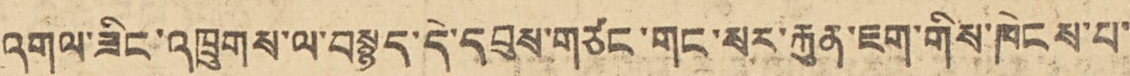འགལ་ཟིང་འཁྲུགས་ལ་བསྙད་དེ་དབུས་གཙང་གང་སར་རྐུན་ཇག་གིས་ཁེངས་པ་
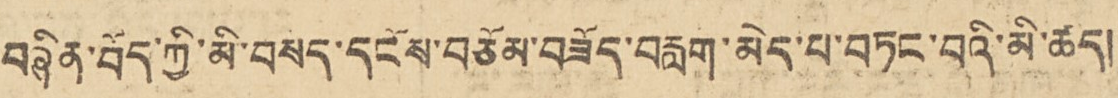བཞིན་བོད་ཀྱི་མི་བསད་དངོས་བཅོམ་བཟོད་བརླག་མེད་པ་བཏང་བའི་མི་ཚད།
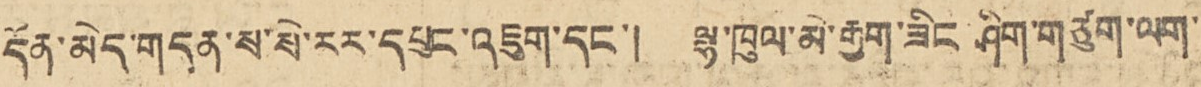དོན་མེད་གདན་ས་སེ་རར་དཔྱང་འཇུག་དང་། ལྷ་ཁུལ་མེ་རྒྱག་ཟིང་ཤིག་གཙུག་ལག་
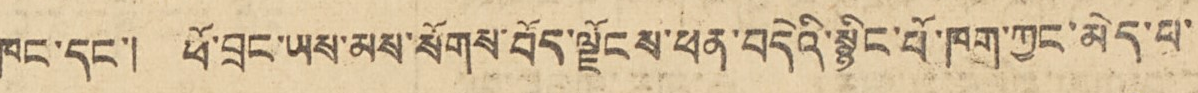ཁང་དང་། ཕོ་ཕྲང་ཡས་མས་སོགས་བོད་ལྗོངས་ཕན་བདེའི་སྙིང་པོ་ཁག་ཀྱང་མེད་པ་
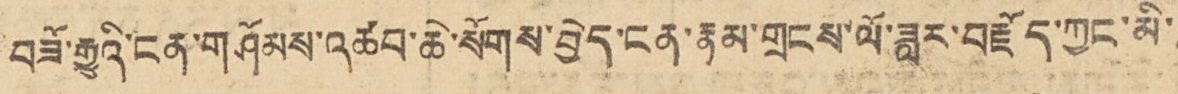བཟོ་རྒྱུའི་ངན་གཤོམས་འཚབས་ཆེ་སོགས་བྱེད་ངན་རྣམ་གྲངས་ལོ་ཟླར་བརྗོད་ཀྱང་མི་
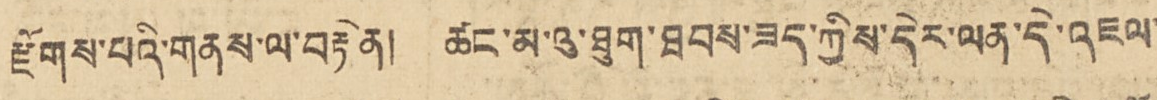རྫོགས་པའི་གནས་ལ་བརྟེན། ཚང་མ་འུ་ཐུག་ཐབས་ཟད་ཀྱིས་དེར་ལན་དེ་འཇལ་
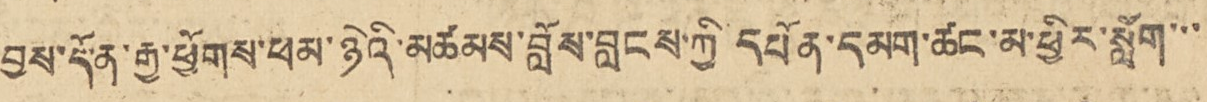བྱས་དོན་རྒྱ་ཕྱོགས་ཕམ་ཉེའི་མཚམས་བློས་བླངས་ཀྱི་དཔོན་དམག་ཚང་མ་ཕྱིར་སློག་་་
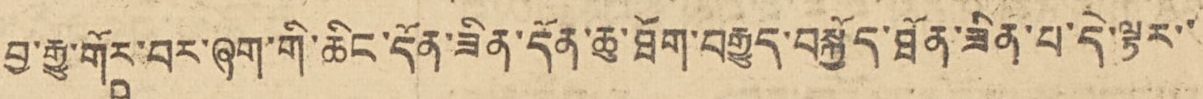བྱ་རྒྱུ་གོརྵ་བར་ཞག་གི་ཆིང་དོན་ཟིན་དོན་ཆུ་ཐོག་བརྒྱུད་བསྐྱོད་ཐོན་ཟིན་པ་དེ་ལྟར་་
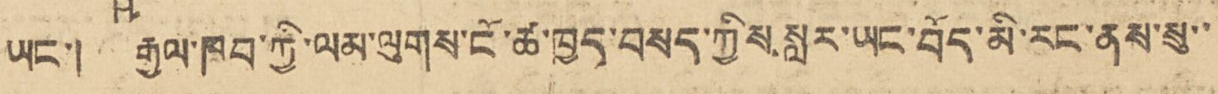ཡང་། རྒྱལ་ཁབ་ཀྱི་ལམ་ལུགས་ངོ་ཚ་ཁྱད་བསད་ཀྱིས་སླར་ཡང་བོད་མི་རང་ནས་སུ་་
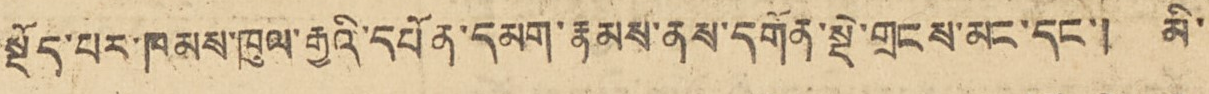སྡོད་པར་ཁམས་ཁུལ་རྒྱའི་དཔོན་དམག་རྣམས་ནས་དགོན་སྡེ་གྲངས་མང་དང་། མི་
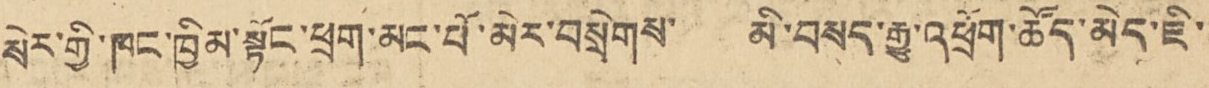སེར་གྱི་ཁང་ཁྱིམ་སྟོང་ཕྲག་མང་པོ་མེར་བསྲེགས་ མི་བསད་རྒྱུ་འཕྲོག་ཚོད་མེད་ཇི་
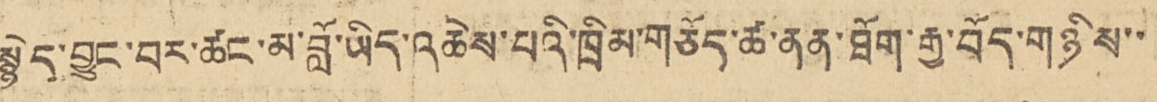སྙེད་བྱུང་བར་ཚང་མ་བློ་ཡིད་འཆེས་པའི་ཁྲིམ་གཅོད་ཚ་ནན་ཐོག་རྒྱ་བོད་གཉིས་་
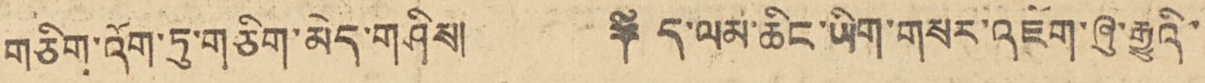གཅིག་འོག་ཏུ་གཅིག་མེད་གཤིས། ༈ ད་ལམ་ཆིང་ཡིག་གསར་འཇོག་ཞུ་རྒྱུའི་
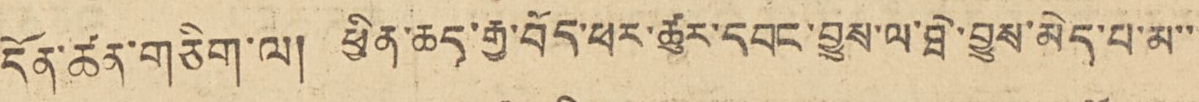དོན་ཚན་གཅིག་ལ། ཕྱིན་ཆད་རྒྱ་བོད་ཕར་ཚུར་བདང་བྱུས་ལ་ཐེ་བྱུས་མེད་པ་མ་་
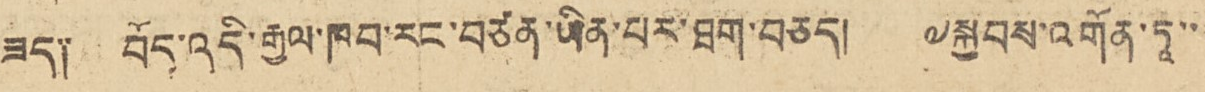ཟད༑ བོད་འདི་རྒྱལ་ཁབ་རང་བཙན་ཡིན་པར་ཐག་བཅད། ༸སྐྱབས་འགོན་ཏཱ་་
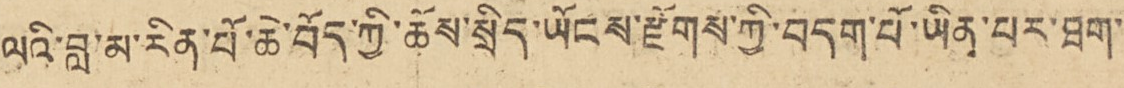ལའི་བླ་མ་རིན་པོ་ཆེ་བོད་ཀྱི་ཆོས་སྲིད་ཡོངས་རྫོགས་ཀྱི་བདག་པོ་ཡིན་པར་ཐག་
